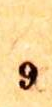9
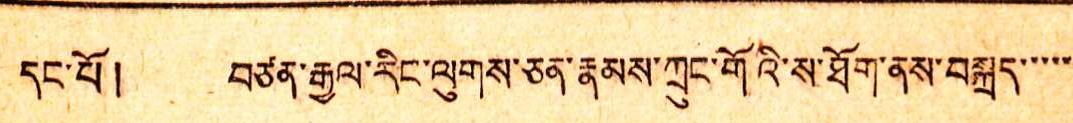དང་པོ། བཙན་རྒྱལ་རིང་ལུགས་ཅན་རྣམས་ཀྲུང་གོའི་ས་ཐོག་ནས་བསྐྲད་་་་་
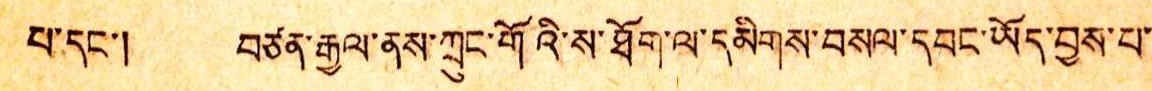པ་དང་། བཙན་རྒྱལ་ནས་ཀྲུང་གོའི་ས་ཐོག་ལ་དམིགས་བསལ་དབང་ཡོད་བྱས་པ་
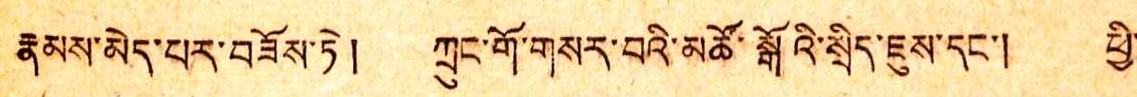རྣམས་མེད་པར་བཟོས་ཏེ། ཀྲུང་གོ་གསར་བའི་མཚོ་སྒོའི་སྲིད་ཇུས་དང་། ཕྱི་
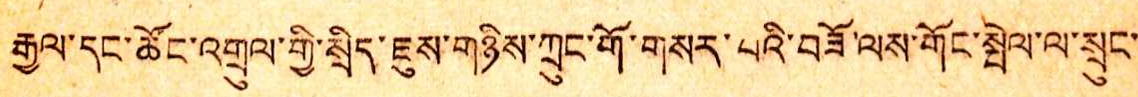རྒྱ་དང་ཚོང་འགྲུལ་གྱི་སྲིད་ཇུས་གཉིས་ཀྲུང་གོ་གསར་པའི་བཟོ་ལས་གོང་སྤེལ་ལ་སྲུང་
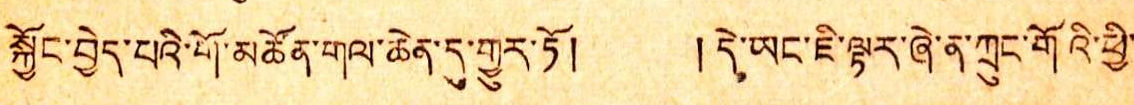སྐྱོང་བྱེད་པའི་གོ་མཚོན་གལ་ཆེན་དུ་གྱུར་ཏོ། ། དེ་ཡང་ཇི་ལྟར་ཞེ་ན་ཀྲུང་གོའི་ཕྱི་
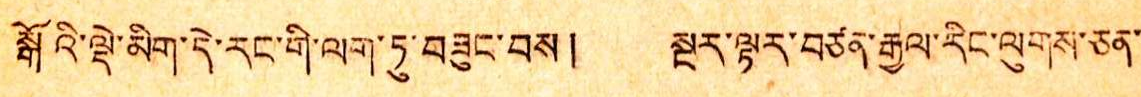སྒོའི་ལྡེ་མིག་དེ་རང་གི་ལག་ཏུ་བཟུང་བས། སྡར་ལྟར་བཙན་རྒྱལ་རིང་ལུགས་ཅན་
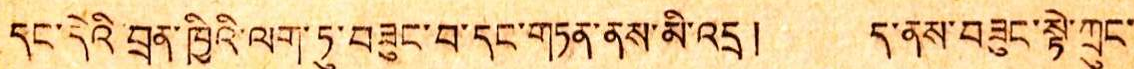དང་དེའི་བྲན་ཁྱིའི་ལག་ཏུ་བཟུང་བ་དང་གཏན་ནས་མི་འདྲ ། ད་ནས་བཟུང་སྟེ་ཀྲུང་
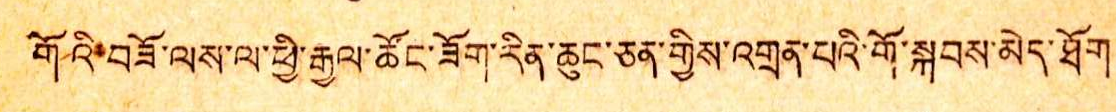གོའི་བཟོ་ལས་ལ་ཕྱི་རྒྱལ་ཚོང་ཟོག་རིན་ཆུང་ཅན་གྱིས་འགྲན་པའི་གོ་སྐབས་མེད་ཐོག
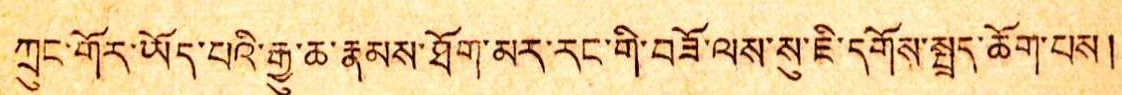ཀྲུང་གོར་ཡོད་པའི་རྒྱུ་ཆ་རྣམས་ཐོག་མར་རང་གི་བཟོ་ལས་སུ་ཇི་དགོས་སྤྲད་ཆོག་པས།
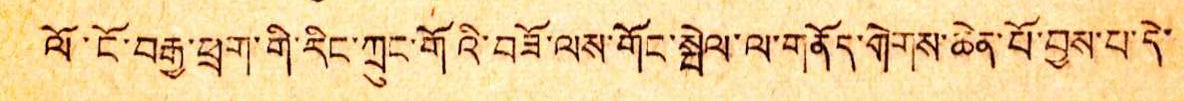ལོ་ངོ་བརྒྱ་ཕྲག་གྱི་རིང་ཀྲུང་གོའི་བཟོ་ལས་གོང་སྤེལ་ལ་གནོད་གེགས་ཆེན་པོ་བས་པ་དེ་
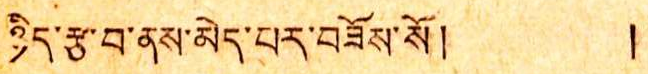ཉིད་རྩ་བ་ནས་མེད་པར་བཟོས་སོ། །
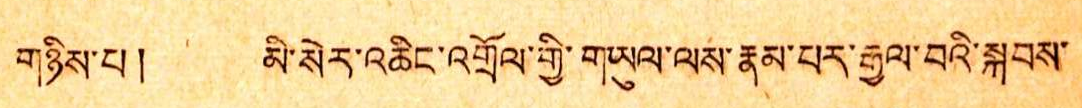གཉིས་པ། མི་སེར་འཆིང་འགྲོལ་གྱི་གཡུལ་ལས་རྣམ་པར་རྒྱལ་བའི་སྐབས་
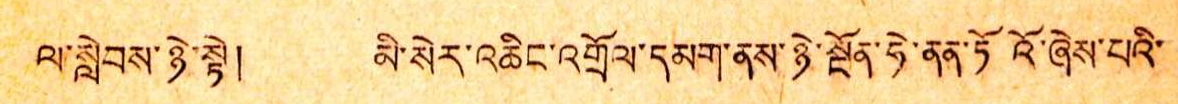ལ་སླེབས་ཉེ་སྟེ། མི་སེར་འཆིང་འགྲོལ་དམག་ནས་ཉེ་སྔོན་ཧེ་ནན་ཏོའོ་ཞེས་པའི་
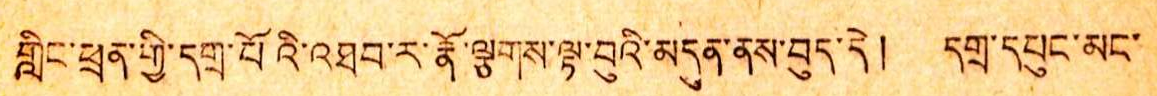གླིང་ཕྲན་གྱི་དགྲ་པོའི་འཐབ་ར་རྣོ་ལྕགས་ལྟ་བུའི་མདུན་ནས་བུད་དེ། དགྲ་དཔུང་མང་
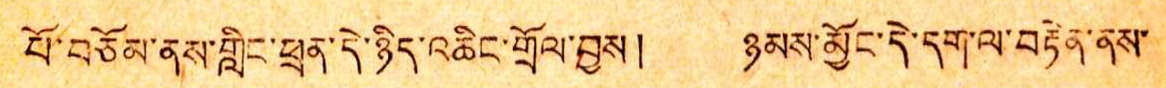པོ་བཅོམ་ནས་གླིང་ཕྲན་དེ་ཉིད་འཆིང་གྲོལ་བྱས། ཉམམ་མྱོང་དེ་དག་ལ་བརྟེན་ནས་
